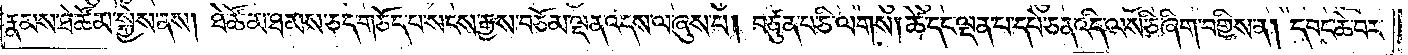རྣམས་ཐེ་ཚོམ་སྐྱེས་ནས། ཐེ་ཚོམ་ཐམས་ཅད་གཅོད་པ་སངས་རྒྱས་བཅོམ་ལྡན་འདས་ལ་ཞུས་པ། བཙུན་པ་ཅི་ལགས། ཚེ་དང་ལྡན་པ་དཔེ་ཅན་འདི་ལས་ཅི་ཞིག་བགྱིས་ན། དབང་ཆེ་བར་
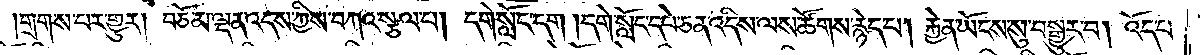གྲགས་པར་གྱུར། བཅོམ་ལྡན་འདས་ཀྱིས་བཀའ་སྩལ་པ། དགེ་སློང་དག །དགེ་སློང་དཔེ་ཅན་འདིས་ལས་ཚོགས་རྙེད་པ། རྐྱེན་ཡོངས་སུ་བསྒྱུར་བ། འོད་པ་
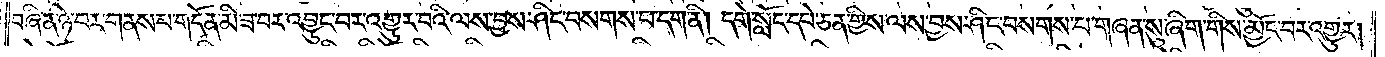བཞིན་ཉེ་བར་གནས་པ་གདོན་མི་ཟ་བར་འབྱུང་བར་འགྱུར་བའི་ལས་བྱས་ཤིང་བསགས་པ་དག་ནི། དགེ་སློང་དཔེ་ཅན་གྱིས་ལས་བྱས་ཤིང་བསགས་པ་གཞན་སུ་ཞིག་གིས་མྱོང་བར་འགྱུར།
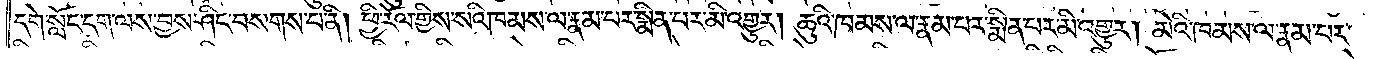དགེ་སློང་དག་ལས་བྱས་ཤིང་བསགས་པ་ནི། ཕྱི་རོལ་གྱིས་སའི་ཁམས་ལ་རྣམ་པར་སྨིན་པར་མི་འགྱུར། ཆུའི་ཁམས་ལ་རྣམ་པར་སྨིན་པར་མི་འགྱུར། མེའི་ཁམས་ལ་རྣམ་པར་
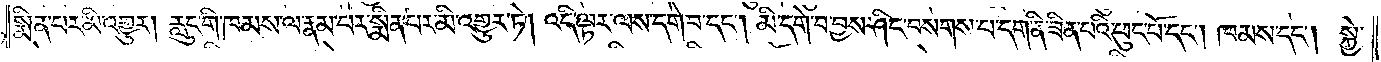སྨིན་པར་མི་འགྱུར། རླུང་གི་ཁམས་ལ་རྣམ་པར་སྨིན་པར་མི་འགྱུར་ཏེ། འདི་ལྟར་ལས་དགེ་བ་དང༌། མི་དགེ་བ་བྱས་ཤིང་བསགས་པ་དག་ནི་ཟིན་པའི་ཕུང་པོ་དང༌། ཁམས་དང༌། སྐྱེ་
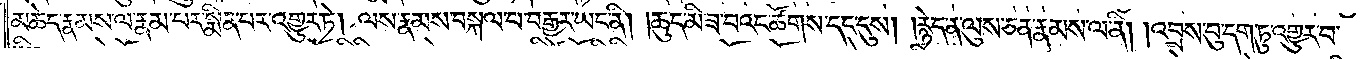མཆེད་རྣམས་ལ་རྣམ་པར་སྨིན་པར་འགྱུར་ཏེ། ལས་རྣམས་བསྐལ་པ་བརྒྱར་ཡང་ནི། །ཆུད་མི་ཟ་བའང་ཚོགས་དང་དུས། །རྙེད་ན་ལུས་ཅན་རྣམས་ལ་ནི། །འབྲས་བུ་དག་ཏུ་འགྱུར་བ་
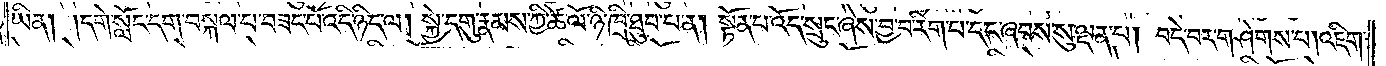ཡིན། །དགེ་སློང་དག་བསྐལ་པ་བཟང་པོ་འདི་ཉིད་ལ། སྐྱེ་དགུ་རྣམས་ཀྱི་ཚེ་ལོ་ཉི་ཁྲི་ཐུབ་པ་ན། སྟོན་པ་འོད་སྲུང་ཞེས་བྱ་བ་རིག་པ་དང་ཞབས་སུ་ལྡན་པ། བདེ་བར་གཤེགས་པ། འཇིག་
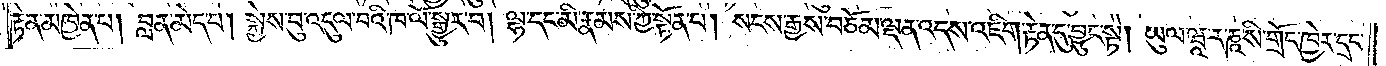རྟེན་མཁྱེན་པ། བླ་ན་མེད་པ། སྐྱེས་བུ་འདུལ་བའི་ཁ་ལོ་སྒྱུར་བ། ལྷ་དང་མི་རྣམས་ཀྱི་སྟོན་པ། སངས་རྒྱས་བཅོམ་ལྡན་འདས་འཇིག་རྟེན་དུ་བྱུང་སྟེ། ཡུལ་ཝཱ་ར་ཎཱ་སི་གྲོང་ཁྱེར་དྲང་
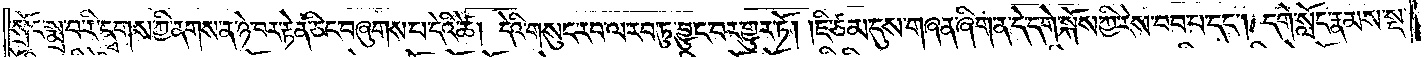སྲོང་སྨྲ་བ་རི་དྭགས་ཀྱི་ནགས་ན་ཉེ་བར་རྟེན་ཅིང་བཞུགས་པ་དེའི་ཚེ། དེའི་གསུང་རབ་ལ་རབ་ཏུ་བྱུང་བར་གྱུར་ཏོ། །ཇི་ཙམ་དུས་གཞན་ཞིག་ན་དེ་དགེ་སྐོས་ཀྱི་རེས་བབ་པ་དང༌། དགེ་སློང་རྣམས་སྔ་
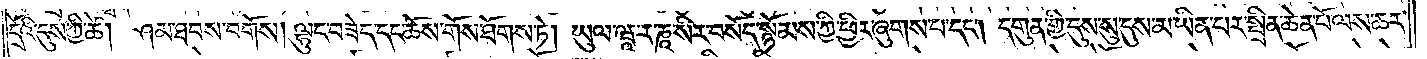དྲོའི་དུས་ཀྱི་ཚེ། ཤམ་ཐབས་བགོས། ལྷུང་བཟེད་དང་ཆོས་གོས་ཐོགས་ཏེ། ཡུལ་ཝཱ་ར་ཎཱ་སིར་བསོད་སྙོམས་ཀྱི་ཕྱིར་ཞུགས་པ་དང༌། དགུན་གྱི་དུས་སུ་དུས་མ་ཡིན་པར་སྤྲིན་ཆེན་པོ་ལས་ཆར་
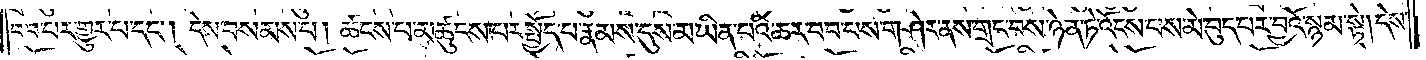བབ་པར་གྱུར་པ་དང༌། དེས་བསམས་པ། ཚངས་པ་མཚུངས་པར་སྤྱོད་པ་རྣམས་དུས་མ་ཡིན་པའི་ཆར་བབ་པས་གཤེར་ནས་གྲང་བས་ཉེན་ཏེ་འོངས་པས་མེ་བུད་པར་བྱའོ་སྙམ་སྟེ། དེས་
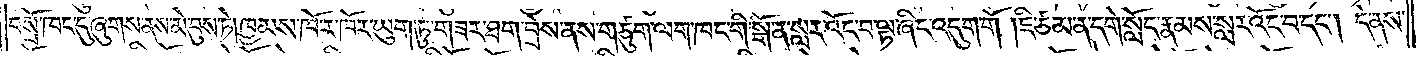བསྲོ་ཁང་དུ་ཞུགས་ནས་མེ་བུས་ཏེ། ཁྱམས་ཁོ་ར་ཁོར་ཡུག་ཏུ་གཟར་ཐག་བྲེས་ནས་གཙུག་ལག་ཁང་གི་སྒོ་ན་སླར་འོང་བ་ལྟ་ཞིང་འདུག་གོ །ཇི་ཙམ་ན་དགེ་སློང་རྣམས་སླར་འོང་བ་དང༌། དེ་ནས་
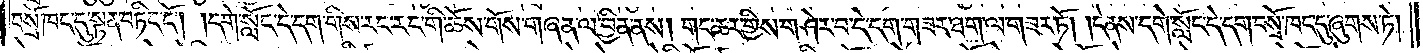བསྲོ་ཁང་དུ་སྟན་བཏིང་ངོ༌། །དགེ་སློང་དེ་དག་གིས་རང་རང་གི་ཆོས་གོས་གཞན་ལ་བྱིན་ནས། གང་ཆར་གྱིས་གཤེར་བ་དེ་དག་གཟར་ཐག་ལ་གཟར་ཏོ། །དེ་ནས་དགེ་སློང་དེ་དག་བསྲོ་ཁང་དུ་ཞུགས་ཏེ།
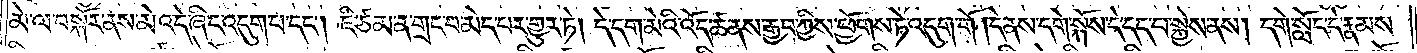མེ་ལ་བསྐོར་ནས་མེ་འདེ་ཞིང་འདུག་པ་དང༌། ཇི་ཙམ་ན་གྲང་བ་མེད་པར་གྱུར་ཏེ། དེ་དག་མེའི་འོད་ཚ་ནས་རྒྱབ་ཀྱིས་ཕྱོགས་ཏེ་འདུག་གོ །དེ་ནས་དགེ་སྐོས་དེ་དད་པ་སྐྱེས་ནས། དགེ་སློང་དེ་རྣམས་
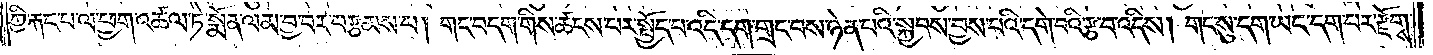ཀྱི་རྐང་པ་ལ་ཕྱག་འཚལ་ཏེ་སྨོན་ལམ་བྱ་བར་བརྩམས་པ། གང་བདག་གིས་ཚངས་པར་སྤྱོད་པ་འདི་དག་གྲང་བས་ཉེན་པའི་སྐྱབས་བྱས་པའི་དགེ་བའི་རྩ་བ་འདིས། གང་སུ་དག་ཡང་དག་པར་རྫོགས་
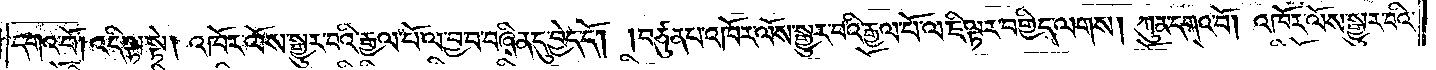དགའ་བོ། འདི་ལྟ་སྟེ། འཁོར་ལོས་སྒྱུར་བའི་རྒྱལ་པོ་ལ་བྱ་བ་བཞིན་དུ་བྱེད་དོ། །བཙུན་པ་འཁོར་ལོས་སྒྱུར་བའི་རྒྱལ་པོ་ལ་ཇི་ལྟར་བགྱིད་ལགས། ཀུན་དགའ་བོ། འཁོར་ལོས་སྒྱུར་བའི་
